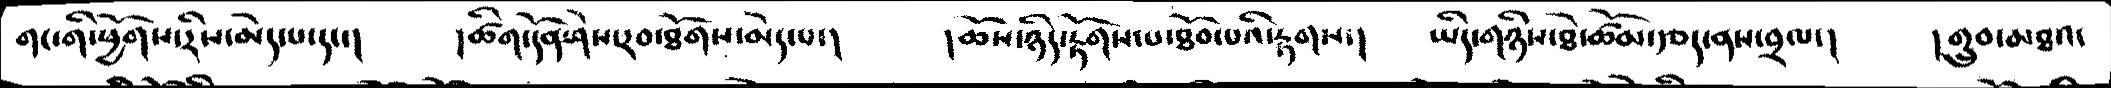གང་གི་ཕྱོགས་རིས་མེད་པ་དང་།   །ཚིག་དོན་ཤེས་རབ་ཐོགས་མེད་པ་།   །ཆོས་ཉིད་རྟོགས་པ་ཐོབ་པའི་རྟགས་།   ཡིད་གཉིས་ཐེ་ཚོམ་རྩད་ནས་བྲལ་།   །གྲུབ་མཐའ་
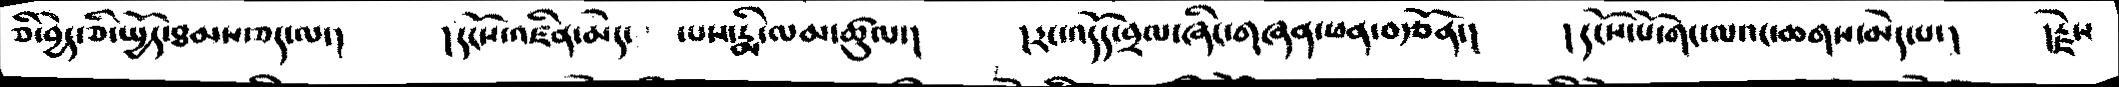ཅི་བྱེད་ཅི་སྤྱོད་ཐམས་ཅད་ལ་།   །དངོས་འཛིན་མེད་ པས་རྨི་ལམ་ཚུལ་།   །རང་འདོད་བྲལ་ཞིང་གཞན་ཕན་བརྩོན་།   །དངོས་པོ་གང་ལའང་ཆགས་མེད་པ་།   །རྗེས་
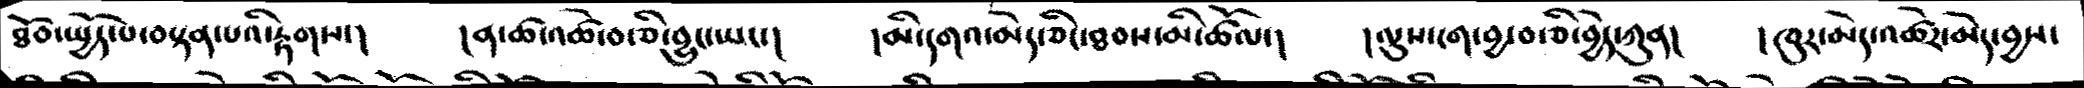ཐོབ་སྤྱོད་པ་བསྟན་པའི་རྟགས་།   །ན་ཚ་འཚེ་བ་ཅི་བྱུང་ཡང་།   །མི་དགའ་མེད་ཅིང་ཐབས་མི་ཚོལ་།   །ལུས་ངག་བྱ་བ་ཅི་བྱེད་ཀུན།  །ཁུར་མེད་འཚེར་མེད་བྱས་
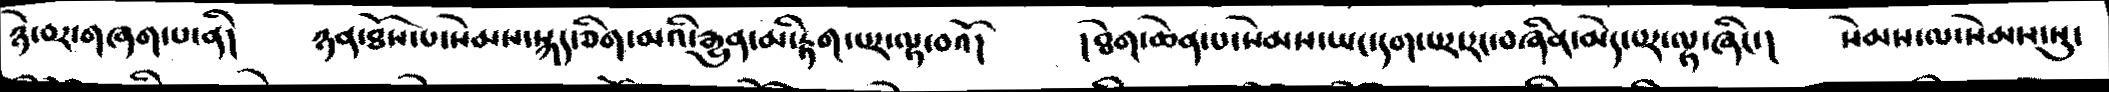ཉེ་བར་གཞག་པ་ནི།  ཉན་ཐོས་པ་སེམས་སྐད་ཅིག་མའི་རྒྱུན་མི་རྟག་པར་ལྟ་བའོ།   །ཐེག་ཆེན་པ་སེམས་ཡང་དག་པར་རང་བཞིན་མེད་པར་ལྟ་ཞིང་།  སེམས་ལ་སེམས་སུ་
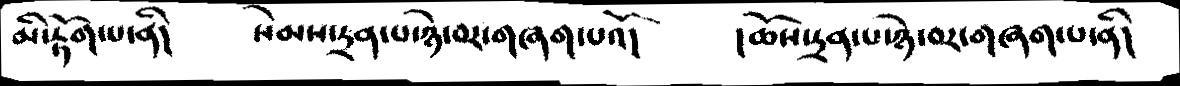མི་རྟོག་པ་ནི།      སེམས་དྲན་པ་ཉེ་བར་གཞག་པའོ།      །ཆོས་དྲན་པ་ཉེ་བར་གཞག་པ་ནི།
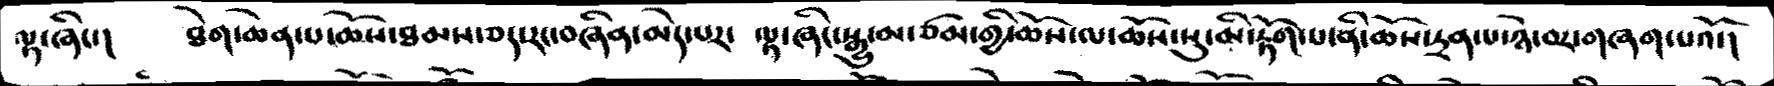ལྟ་ཞིང་།    ཐེག་ཆེན་པ་ཆོས་ཐམས་ཅད་རང་བཞིན་མེད་པར་  ལྟ་ཞིང་སྒྱུ་མ་ཙམ་གྱི་ཆོས་ལ་ཆོས་སུ་མི་རྟོག་པ་ནི་ཆོས་དྲན་པ་ཉེ་བར་གཞག་པའོ་།
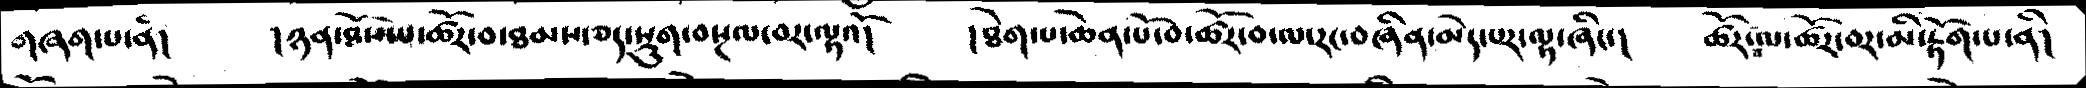གཞག་པ་ནི།    །ཉན་ཐོས་པ་ཚོར་བ་ཐམས་ཅད་སྡུག་བསྔལ་བར་ལྟའོ།    །ཐེག་པ་ཆེན་པོ་བ་ཚོར་བ་ལ་རང་བཞིན་མེད་པར་ལྟ་ཞིང་།   ཚོར་བ་ལ་ཚོར་བར་མི་རྟོག་པ་ནི།
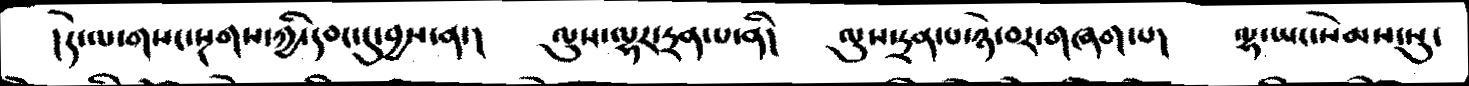།དེ་ལ་གསང་སྔགས་ཀྱི་དབང་དུ་བྱས་ན་།      ལུས་ལྷར་དྲན་པ་ནི།    ལུས་དྲན་པ་ཉེ་བར་གཞག་པ།    ལྷ་ཡང་སེམས་སུ་
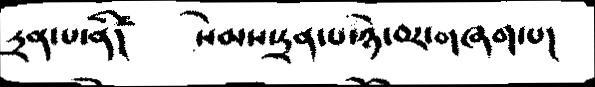དྲན་པ་ནི།     སེམས་དྲན་པ་ཉེ་བར་གཞག་པ།
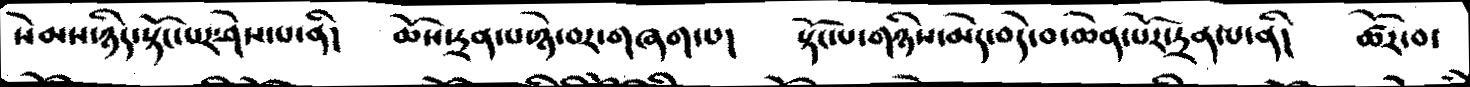སེམས་ཉིད་སྟོང་པར་ཤེས་པ་ནི།    ཆོས་དྲན་པ་ཉེ་བར་གཞག་པ།    སྟོང་པ་གཉིས་མེད་བདེ་བ་ཆེན་པོར་དྲན་པ་ནི།   ཚོར་བ་
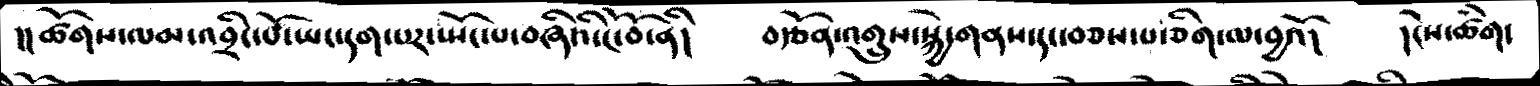།།ཚོགས་ལམ་འབྲིང་པོ་ཡང་དག་པར་སྤོང་པ་བཞིའི་ངོ་བོ་ནི།   བརྩོན་འགྲུས་སྐྱེ་གནས་དང་བཅས་པ་ཅིག་ལ་བྱའོ།  །ངེས་ཚིག་
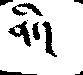ནི་།
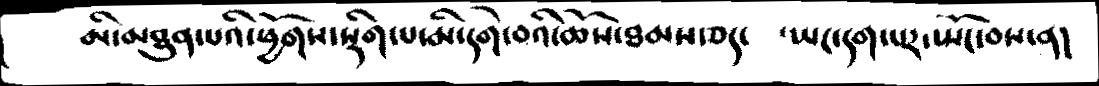མི་མཐུན་པའི་ཕྱོགས་སྡིག་པ་མི་དགེ་བའི་ཆོས་ཐམས་ཅད་  ་ཡང་དག་པར་སྤོང་བས་ན།
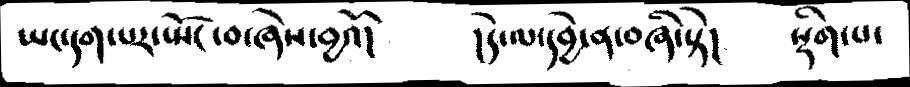ཡང་དག་པར་སྤོང་བ་ཞེས་བྱའོ།     །དེ་ལ་དབྱེ་ན་བཞི་སྟེ།      སྡིག་པ་
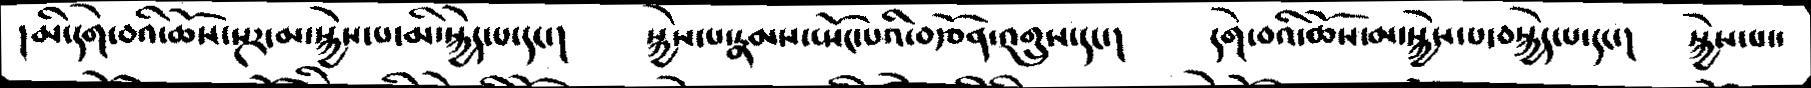།མི་དགེ་བའི་ཆོས་སྔར་མ་སྐྱེས་པ་མི་སྐྱེད་པ་དང་།   སྐྱེས་པ་རྣམས་སྤོང་པའི་བརྩོན་འགྲུས་དང་།   དགེ་བའི་ཆོས་མ་སྐྱེས་པ་བསྐྱེད་པ་དང་།  སྐྱེས་པ་་
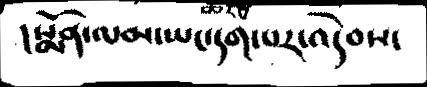།སྨོན་ལམ་ཡང་དག་པར་འདེབས་
